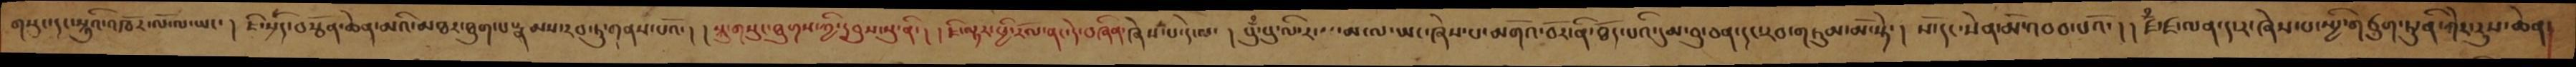གསུང་དང་སྐུའི་འཁོར་ལོ་ལ་ཡང་། ཇི་སྲིད་བརྩོན་ཆེན་མའི་མཐར་ཐུག་པ་རྣམས་རབ་ཏུ་གནས་པའོ་། །སྐུ་གསུང་ཐུགས་ཀྱི་དབུས་སུ་ནི་།  །ཇི་ལྟར་ཕྱི་རོལ་ནང་དེ་བཞིན་ཞེས་པ་དེ་ལ་། སུྃ་སུ་ལི་ར་ས་མ་ལ་ཡང་ཞེས་པ་མགོའ་བོར་ནི་ཐོད་པའི་དུམ་བུ་ཅན་དང་རབ་གཏུམ་མོ་སྟེ་།  སོ་དང་སེན་མོས་བབ་པའོ་། །ཛྃ་ཛ་ལན་ད་ར་ཞེས་པ་སྤྱི་གཙུག་ཏུ་ནི་ཀིང་རུས་ཆེན།
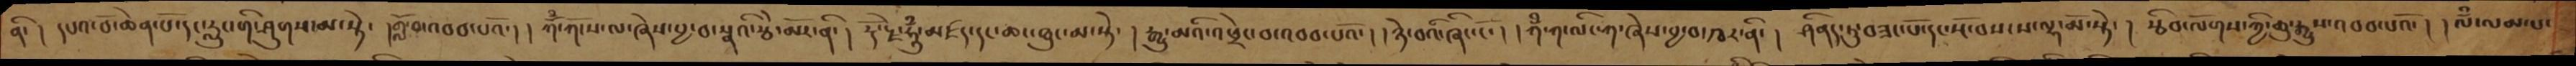ནི་ ། དཔའ་བོ་ཆེན་པོ་དང་རླུང་གི་ཤུགས་མ་སྟེ་ །གློ་བ་འབབ་པའོ་། །ཀོཾ་ཀོངས་ལ་ཞེས་བྱ་བ་སྣའི་རྩེ་མོར་ནི་། རྡོ་རྗེ་ཧཱུྃ་མཛད་དང་ཆང་ཐུང་མ་སྟེ་ ། རྒྱུ་མའི་འཕྲེང་བ་འབབ་པའོ་། །ཉེ་བའི་ཞིང་ངོ་། །ཀྃ་ཀ་ལིང་ཀ་ཞེས་བྱ་བ་ཁར་ནི་། ཤིནད་ཏུ་བཟང་པོ་དང་སྔོ་བསངས་ལྷ་མོ་སྟེ་། རྩིབ་ལོགས་ཀྱི་ཆུ་རྒྱུས་འབབ་པའོ་། །ལྃ་ལམ་པ་
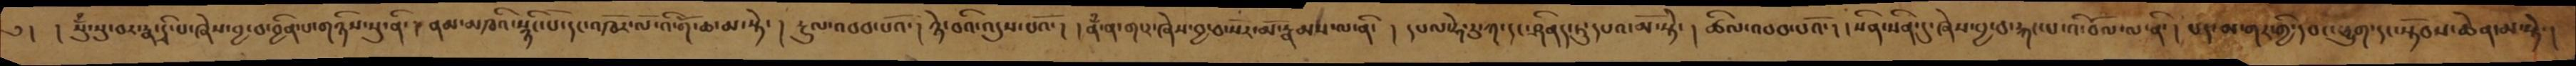༄ ། །སུྃ་སུ་བར་རྣ་དྲི་པ་ཞེས་བྱ་བ་བྱིན་པ་གཉིས་སུ་ནི་ ༈ ནམ་མཁའི་སྙིང་པོ་དང་འཁོར་ལོ་འི་གོ་ཆ་མ་སྟེ་ ། རྔུལ་འབབ་པའོ་། ཉེ་བའི་འདུས་པའོ་། །ནྃ་ན་ག་ར་ཞེས་བྱ་བ་སོར་མོ་རྣམས་ལ་ནི་ ། དཔལ་ཧེ་རུ་ཀ་དང་ཤིནད་ཏུ་དཔའ་མོ་སྟེ་ ། ཚིལ་འབབ་པའོ་། །སིན་སིན་དུ་ཞེས་བྱ་བ་རྐང་པ་འི་བོལ་ལ་ནི་ ། པད་མ་གར་གྱི་དབང་ཕྱུག་དང་སྟོབས་ཆེན་མ་སྟེ་ །
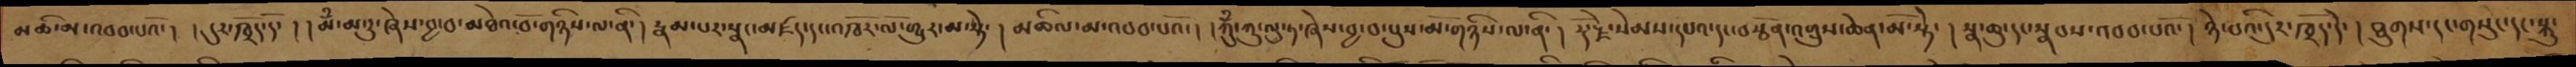མཆི་མ་འབབ་པའོ་། །དུར་ཁྲོད་དོ་། །མྃ་མ་རུ་ཞེས་བྱ་བ་མཐེའ་བོ་གཉིས་ལ་ནི་། རྣམ་པར་སྣང་མཛད་དང་འཁོར་ལོ་གྱུར་མ་སྟེ་། མཆིལ་མ་འབབ་པའོ་། །ཀུྃ་ཀུ་ལུ་ཏ་ཞེས་བྱ་བ་པུས་མོ་གཉིས་ལ་ནི་ ། རྡོ་རྗེ་སེམས་དཔའ་དང་བརྩོན་འགྲུས་ཆེན་མོ་སྟེ་། སྣ་ཆུ་དང་སྣབས་འབབ་པའོ་ ། ཉེ་བའི་དུར་ཁྲོད་དེ་ ། ཐུགས་དང་གསུང་དང་སྐུ་
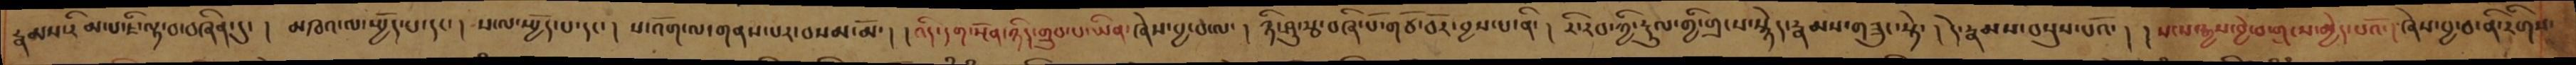རྣམས་རིམ་པ་ཇི་ལྟ་བ་བཞིན་དུ་། མཁའ་ལ་སྤྱོད་པ་དང་། ས་ལ་སྤྱོད་པ་དང་། ས་འོག་ལ་གནས་པར་བསམ་མོ་། །འདི་དག་སྔོན་ཉིད་གྲུབ་པ་ཡིན་ཞེས་བྱ་བ་ལ་། ཉི་ཤུ་རྩ་བཞི་པོ་གཙོ་བོར་བྱས་པ་ནི་། རི་རབ་ཀྱི་རྡུལ་གྱི་གྲངས་སྙེད་རྣམས་གཟུང་སྟེ་། དེ་རྣམས་བསྡུས་པའོ་། །སངས་རྒྱས་བྱེ་བ་གྲངས་མྱེད་པའོ་། ཞེས་བྱ་བ་ནི་རིགས་
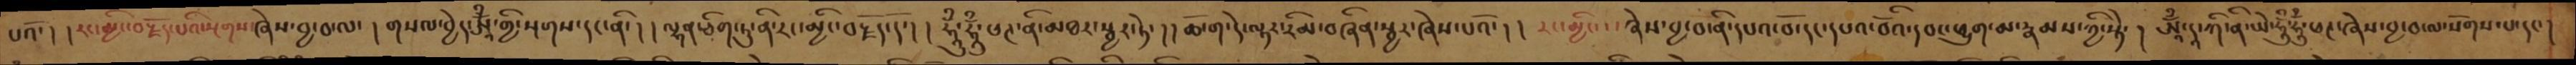པའོ་ ། །རང་མྱིང་བརྗོད་པའི་སྔགས་ཞེས་བྱ་བ་ལ་ ། གསལ་བྱེད་ཨཱོྃ་གྱི་སྔགས་དང་ནི་། །ལྷན་ཅིག་ཏུ་ནི་རང་མྱིང་བརྗོད་དོ་། །ཧཱུྃ་ཧཱུྃ་ཕཊ་ནི་མཐར་སྦྱར་ཏེ་ །། ཆོ་ག་དེ་ལྟར་རིམ་བཞིན་སྦྱར་ཞེས་པའོ་། །རང་མྱིང་་་ཞེས་བྱ་བ་ནི་དཔའ་བོ་དང་དཔའ་བོའི་དབང་ཕྱུག་མ་རྣམས་ཀྱི་སྟེ་ ། ཨཱོྃ་དཱ་ཀི་ན་ཡེ་ཧཱུྃ་ཧཱུྃ་ཕཊ་ཞེས་བྱ་བ་ལ་སོགས་པ་དང་།
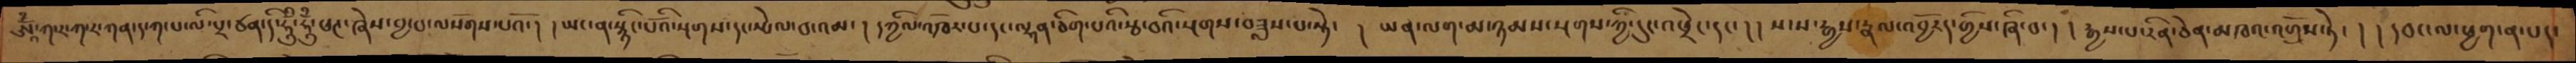ཨཱོྃ་ཀ་ར་ཀ་ར་ཀན་ད་ཀ་པ་ལི་པྲ་ཙན་དི་ཧཱུྃ་ཧཱུྃ་ཕཊ་ཞེས་བྱ་བ་ལསོགས་པའོ་། །ཡང་ན་སྙིང་པོའི་སྔགས་དང་སྤེལ་བ་འམ་ ། དཀྱིལ་འཁོར་པ་དང་ལྷན་ཅིག་པའི་རྩ་བའི་སྔགས་བཟླས་པ་སྟེ་ ། ཡན་ལག་མ་ཉམས་སྔགས་ཀྱི་དུང་འཕྲེང་དང་ ། །སངས་རྒྱས་རྣལ་འབྱོརད་གྱིས་ཞི་བ་། །རྒྱས་པ་རིན་ཅེན་མཁའ་འགྲོས་ཏེ་ ། །དབང་ལ་ཕྱག་ན་པད་
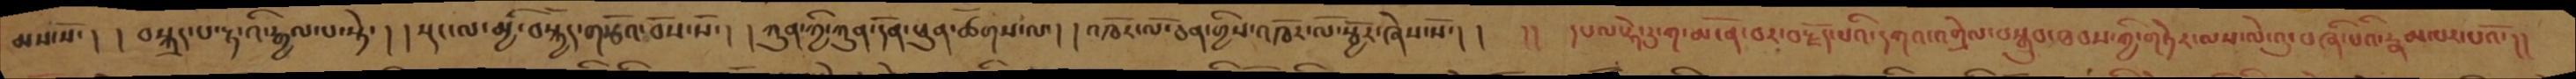མས་སོ་། །བསྐྲད་པ་ལྷ་འི་རྒྱལ་པ་སྟེ་། །སྡང་ལ་མྱི་བསྐྱོད་གཙོའ་བོས་སོ་། །ཀུན་གྱི་ཀུན་དོན་ཕུན་ཚོགས་ལ། །འཁོར་ལོ་ཅན་གྱིས་འཁོར་ལོ་སྦྱོར་ཞེས་སོ་།། །། དཔལ་ཧེ་རུ་མངོན་བར་བརྗོད་པའི་དཀའ་འགྲེལ་བསྒྲུབ་ཐབས་ཀྱི་གཏེར་ལས་ལེ་འུ་བཞི་པའི་རྣམ་པར་པའོ་།།
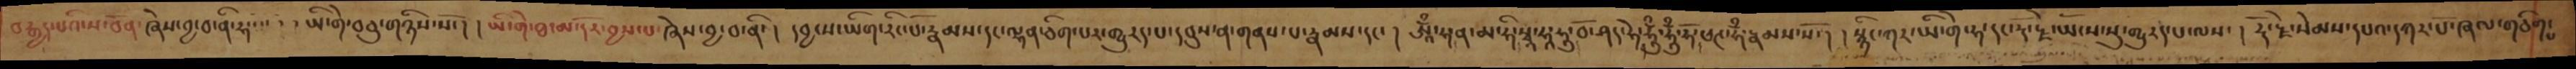བརྒྱད་པའི་ས་བོན་ཞེས་བྱ་བ་ནི་ཧ་་་་ ་ ་ཡི་གེ་བཅུ་གཉིས་སོ་། །ཡི་གེ་ཐ་མ་དོར་བྱས་པ་ཞེས་བྱ་བ་ནི་ ། དབྱངས་ཡིག་རིང་པོ་རྣམས་དང་ལྷན་ཅིག་པར་གྱུརད་པ་དབུས་ན་གནས་པ་རྣམས་དང་ ། ཨཱོྃ་ཧ་ན་མ་ཧི་སྭཱ་ཧཱ་ཧུ་བོ་ཤད་ཧེ་ཧཱུྃ་ཧཱུྃ་ཧོ་ཕཊ་ཧྃ་རྣམས་སོ་ ། །སྙིང་ཀར་ཡི་གེ་ཧ་དང་རྡོ་རྗེ་ཡོངས་སུ་གྱུརད་པ་ལས་ ། རྡོ་རྗེ་སེམས་དཔའ་དཀར་པོ་ཞལ་གཅིག་པ
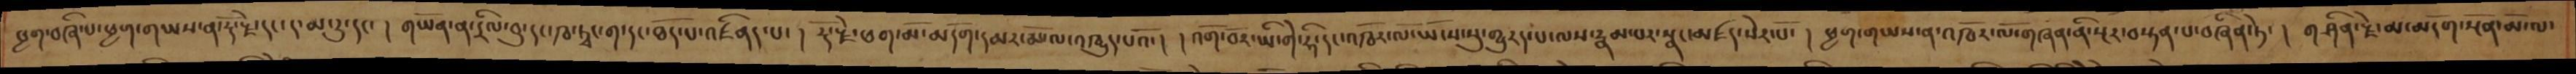ཕྱག་བཞི་པ་ཕྱག་གཡས་ན་རྡོ་རྗེ་དང་ད་མ་རུ་དང་། གཡོན་ན་དྲིལ་བུ་དང་ཁ་ཏྭང་ག་དང་ཐོད་པ་འཛིནད་པ་། རྡོ་རྗེ་ཕག་མོ་མདོག་དམར་མོ་ལ་འཁྱུད་པའོ་། །འགོ་བར་ཡི་གེ་ཧི་དང་འཁོར་ལོ་ཡོངས་སུ་གྱུརད་པ་ལས་རྣམ་པར་སྣང་མཛད་སེར་པོ་། ཕྱག་གཡས་ན་འཁོར་ལོ་གཞན་ནི་སྔར་བསྟན་པ་བཞིན་ཏེ་། གཤིན་རྗེ་མ་མདོག་སྔོན་མོ་ལ་
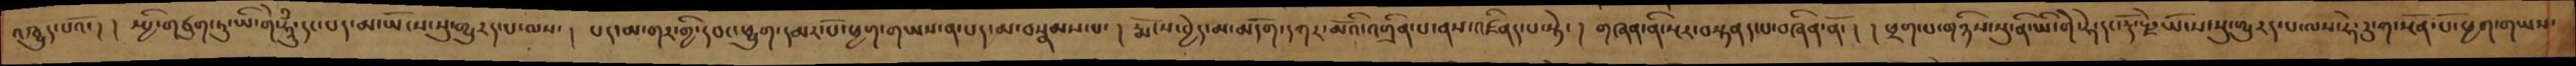འཁྱུད་པའོ་། སྤྱི་གཙུག་ཏུ་ཡི་གེ་ཧཱུྃ་དང་པད་མ་ཡོངས་སུ་གྱུརད་པ་ལས་། པད་མ་གར་ཀྱི་དབང་ཕྱུག་དམར་པོ་ཕྱག་གཡས་ན་པད་མ་བསྣམས་པ་། རྨོངས་བྱེད་མ་མདོག་དཀར་མོའི་འགྲིན་པ་ནས་འཛིནད་པ་སྟེ་། གཞན་ནི་སྔར་བསྟནད་པ་བཞིན་ནོ་། ཕྲག་པ་གཉིས་སུ་ནི་ཡི་གེ་ཧེ་དང་རྡོ་རྗེ་ཡོངས་སུ་གྱུརད་པ་ལས་ཧེ་རུ་ཀ་སྔོན་པོ་ཕྱག་གཡས་
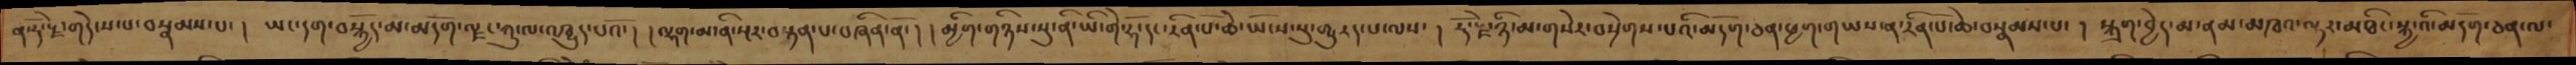ན་རྡོ་རྗེ་གདེངས་པ་བསྣམས་པ་། ཡང་དག་བསྐྱོད་མ་མདོག་ལྗང་ཀུ་ལ་འཁྱུད་པའོ་། །ལྷག་མ་ནི་སྔར་བསྟན་པ་བཞིན་ནོ་། མྱིག་གཉིས་སུ་ནི་ཡི་གེ་ཧོ་དང་རིན་པོ་ཆེ་ཡོངས་སུ་གྱུརད་པ་ལས་། རྡོ་རྗེ་ཉི་མ་གསེར་བསྲེགས་པའི་མདོག་ཅན་ཕྱག་གཡས་ན་རིན་པོ་ཆེ་བསྣམས་པ་། སྐྲག་བྱེད་མ་ནམ་མཁའ་ལྟར་མཐིང་སྐྱ་འི་མདོག་ཅན་ལ་
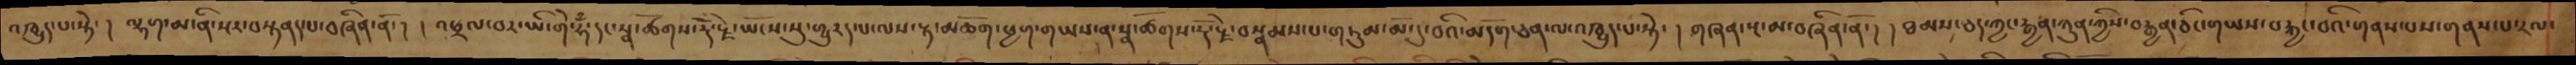འཁྱུད་པ་སྟེ་། ལྷག་མ་ནི་སྔར་བསྟནད་པ་བཞིན་ནོ་། །འཕྲལ་བར་ཡི་གེ་ཧྃ་དང་སྣ་ཚོགས་རྡོ་རྗེ་ཡོངས་སུ་གྱུརད་པ་ལས་རྟ་མཆོག་ཕྱག་གཡས་ན་སྣ་ཚོགས་རྡོ་རྗེ་བསྣམས་པ་གཏུམ་མོ་དུ་བའི་མདོག་ཅན་ལ་འཁྱུད་པ་སྟེ་། གཞན་སྔ་མ་བཞིན་ནོ་། །ཐམས་ཅད་ཀྱང་བརྒྱན་ཀུན་ཀྱིས་བརྒྱན་ཅིང་གཡས་བརྐྱང་བའི་གནས་པས་གནས་པ་རལ་
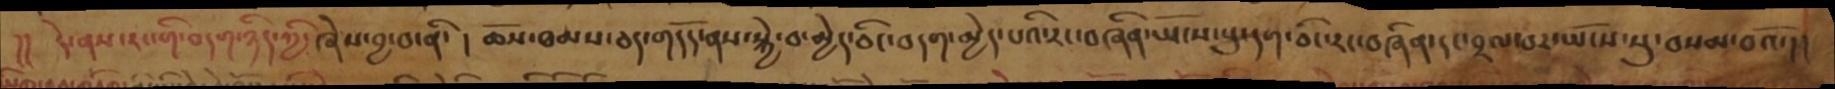།། དེ་ནས་རང་གི་བདག་ཉིད་ཀྱི་ཞེས་བྱ་བ་ནི་ ། ཆོས་ཐམས་ཅད་གདོད་ནས་སྐྱེ་བ་མྱེད་ཅིང་བདག་མྱེད་པའི་རང་བཞིན་ཡོངས་སུ་དག་ཅིང་རང་བཞིན་དང་བྲལ་བར་ཡོངས་སུ་བསམ་བའོ་།།
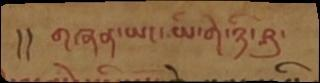།། གཞན་ཡང་ཡི་གེ་ཉི་ཤུ་
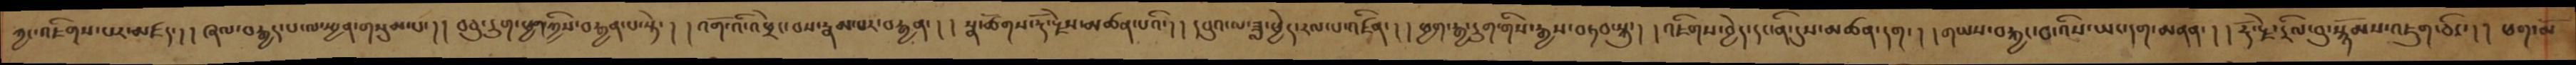ཀྱང་འཇིགས་པར་མཛད་། །ཞལ་བརྒྱད་པ་ལ་སྤྱན་གསུམ་པ་། །བཅུ་དྲུག་ཕྱག་གྱིས་བརྒྱན་པ་སྟེ་། །འགོ་འི་འཕྲེང་བས་རྣམ་པར་བརྒྱན་། །སྣ་ཚོགས་རྡོ་རྗེས་མཚན་པའི་། །དབུའ་ལ་ཟླ་ཕྱེད་རལ་པ་འཛིན་། །ཕྱག་རྒྱ་དྲུག་གིས་རྒྱས་བཏབ་སྐུ་། །འཇིགས་བྱེད་དང་ནི་དུས་མཚོན་དག་། །གཡས་བརྐྱང་བ་འིས་ཡང་དག་མནན་། །རྡོ་རྗེ་དྲིལ་བུ་སྙོམས་འཇུག་ཅིང་། །ཕག་མོ
